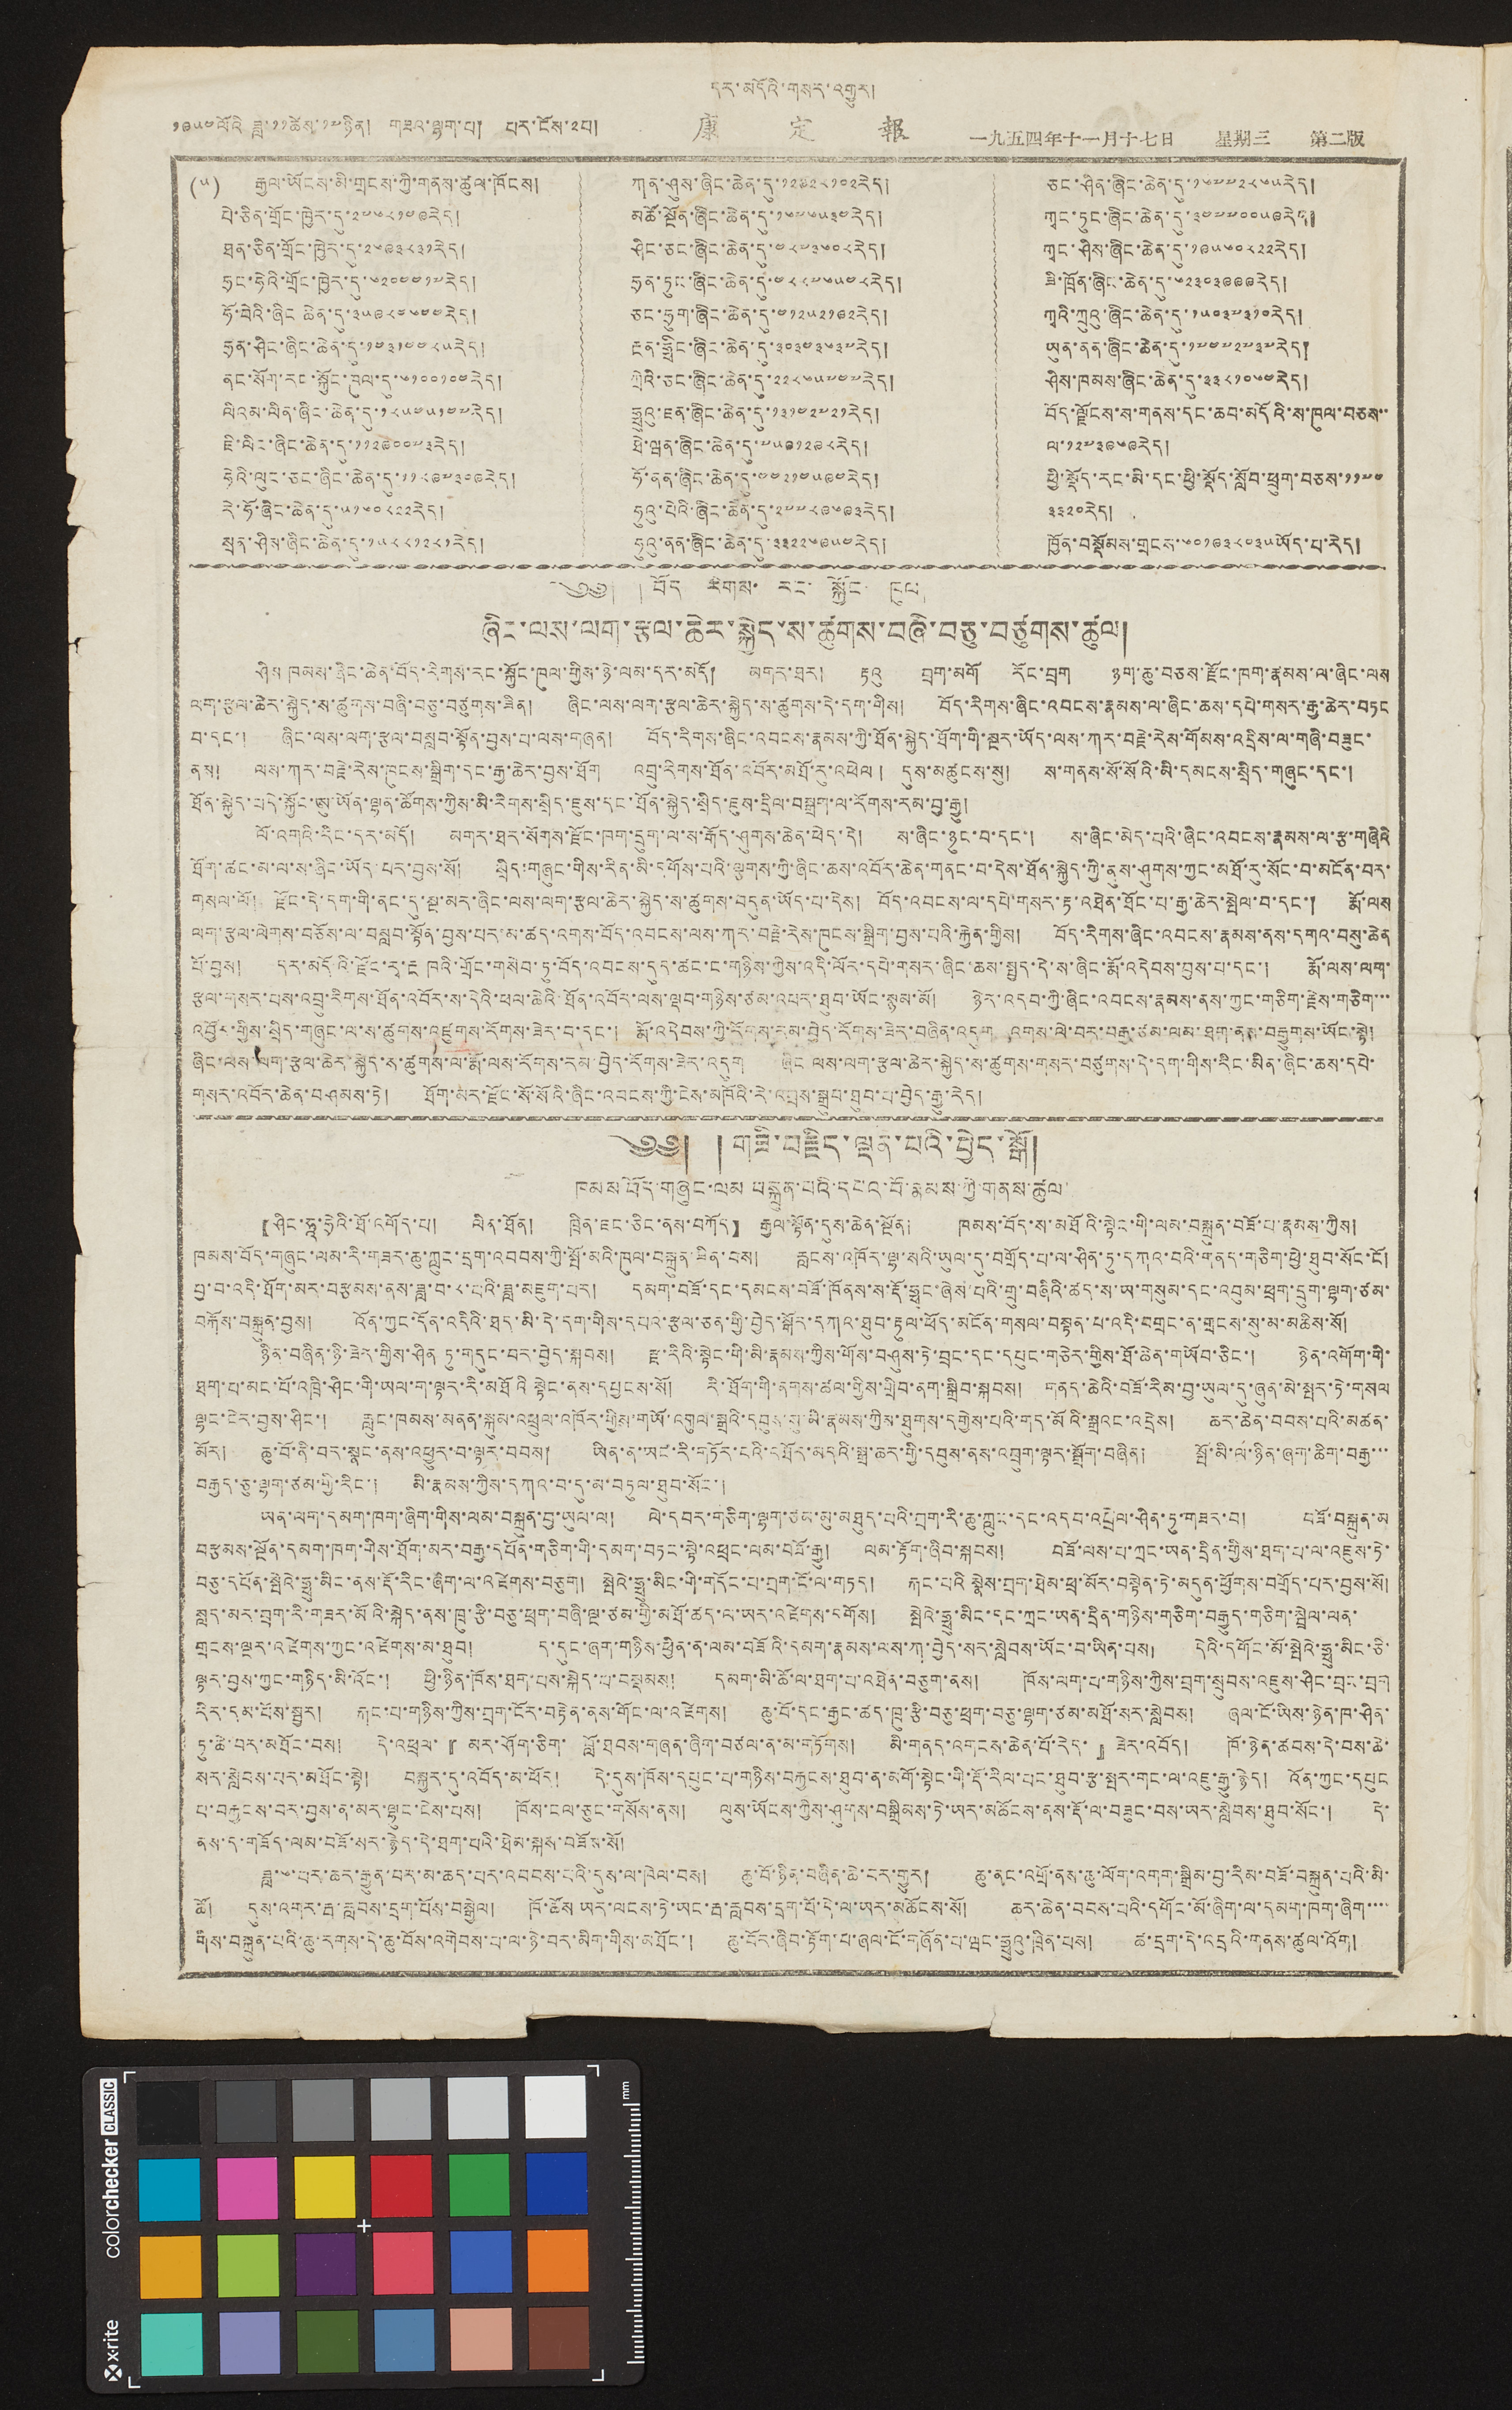དར་མདོའི་གསར་འགྱུར།
༡༩༥༤ལོའི ཟླ་༡༡ཚེས་༡༧ཉིན། གཟའ་ལྷག་པ། པར་ངོས་༢པ། 康 定 報 一九五四年十一月十七日 星期三 第二版
(༥) རྒྱལ་ཡོངས་མི་གྲངས་ཀྱི་གནས་ཚུལ་ཁོངས།
པེ་ཅིན་གྲོང་ཁྱེར་དུ་༢༧༦༨༡༤༩རེད།
ཐན་ཅིན་གྲོང་ཁྱེར་དུ་༢༤༩༣༨༣༡རེད།
ཧྲང་ཧེའི་གྲོང་ཁྱེར་དུ་༦༢༠༤༤༡༧རེད།
ཧོ་བེའི་ཞིང་ཆེན་དུ་༣༥༩༨༤༦༤༤རེད།
ཧྲན་ཤིང་ཞིང་ཆེན་དུ་༡༤༣༡༤༤༨༥རེད།
ནང་སོག་རང་སྐྱོང་ཁུལ་དུ་༦༡༠༠༡༠༤རེད།
ལིའམ་ལིན་ཞིང་ཆེན་དུ་༡༨༥༤༥༡༤༧རེད།
ཇི་ལིང་ཞིང་ཆེན་དུ་༡༡༢༩༠༠༧༣རེད།
ཧེའི་ལུང་ཅང་ཞིང་ཆེན་དུ་༡༡༨༩༧༣༠༩རེད།
རེ་ཧོ་ཞིང་ཆེན་དུ་༥༡༦༠༨༢༢རེད།
སྲན་ཤིས་ཞིང་ཆེན་དུ་༡༥༨༨༡༢༨༡རེད།
ཀན་ཤུས་ཞིང་ཆེན་དུ་༡༢༩༢༨༡༠༢རེད།
མཚོ་སྔོན་ཞིང་ཆེན་དུ་༡༦༧༦༥༣༤རེད།
ཤིང་ཅང་ཞིང་ཆེན་དུ་༤༨༧༣༦༠༨རེད།
ཧྲན་ཏུང་ཞིང་ཆེན་དུ་༤༨༨༧༦༥༤༨རེད།
ཅང་ཧྲུག་ཞིང་ཆེན་དུ་༤༡༢༥༢༡༩༢རེད།
རྔན་ཧྥིང་ཞིང་ཆེན་དུ་༣༠༣༤༣༦༣༧རེད།
ཀྲེའི་ཅང་ཞིང་ཆེན་དུ་༢༢༨༦༥༧༤༧རེད།
ཧྥུའུ་ཇན་ཞིང་ཆེན་དུ་༡༣༡༤༢༧༢༡རེད།
ཐེ་ཝན་ཞིང་ཆེན་དུ་༧༥༩༡༢༩༨རེད།
ཧོ་ནན་ཞིང་ཆེན་དུ་༤༤༢༡༤༥༩༤རེད།
ཧུའུ་པེའི་ཞིང་ཆེན་དུ་༢༧༧༨༩༦༩༣རེད།
ཧུའུ་ནན་ཞིང་ཆེན་དུ་༣༣༢༢༦༩༥༤རེད།
ཅང་ཤིན་ཞིང་ཆེན་དུ་༡༦༧༧༢༨༦༥རེད།
ཀྭང་ཏུང་ཞིང་ཆེན་དུ་༣༤༧༧༠༠༥༩རེད།
ཀྭང་ཤིས་ཞིང་ཆེན་དུ་༡༩༥༦༠༨༢༢རེད།
ཟི་ཁྲོན་ཞིང་ཆེན་དུ་༦༢༣༠༣༩༩༩རེད།
ཀྭའི་ཀྲུའུ་ཞིང་ཆེན་དུ་༡༥༠༣༧༣༡༠རེད།
ཡུན་ནན་ཞིང་ཆེན་དུ་༡༧༤༧༢༧༣༧རེད།
ཤིས་ཁམས་ཞིང་ཆེན་དུ་༣༣༨༡༠༦༤རེད།
བོད་ལྗོངས་ས་གནས་དང་ཆབ་མདོའི་ས་ཁུལ་བཅས་་
ལ་༡༢༧༣༩༦༩རེད།
སྤྱི་སྡོད་རང་མི་དང་ཕྱི་སྡོད་སློབ་ཕྲུག་བཅས་༡༡༧༤
༣༣༢༠རེད།
ཁྱོན་བསྡོམས་གྲངས་༦༠༡༩༣༨༠༣༥ཡོད་པ་རེད།
༄༅། ། བོད རིགས་ རང་ སྐྱོང ཁུལ།
ཞིང་ལས་ལག་རྩལ་ཆེར་སྐྱེད་ས་ཚུགས་བཞི་བཅུ་བཙུགས་ཚུལ།
ཤིས ཁམས་ཞིང་ཆེན་བོད་རིགས་རང་སྐྱོང་ཁུལ་གྱིས་ཉེ་ལམ་དར་མདོ། མགར་ཐར། རྟའུ བྲག་མགོ རོང་བྲག ཉག་ཆུ་བཅས་རྫོང་ཁག་རྣམས་ལ་ཞིང་ལས
ལག་རྩལ་ཆེར་སྐྱེད་ས་ཚུགས་བཞི་བཅུ་བཙུགས་ཟིན། ཞིང་ལས་ལག་རྩལ་ཆེར་སྐྱེད་ས་ཚུགས་དེ་དག་གིས། བོད་རིགས་ཞིང་འབངས་རྣམས་ལ་ཞིང་ཆས་དཔེ་གསར་རྒྱ་ཆེར་བཏང
བ་དང་། ཞིང་ལས་ལག་རྩལ་བསླབ་སྟོན་བྱས་པ་ལས་གཞན། བོད་རིགས་ཞིང་འབངས་རྣམས་ཀྱི་ཐོན་སྐྱེད་ཐོག་གི་སྔར་ཡོད་ལས་ཀར་བརྗེ་རེས་གོམས་འདྲིས་ལ་གཞི་བཟུང་
ནས། ལས་ཀར་བརྗེ་རེས་ཁུངས་སྒྲིག་དང་རྒྱ་ཆེར་བྱས་ཐོག འབྲུ་རིགས་ཐོན་འབོར་མཐོ་རུ་འཕེལ། དུས་མཚུངས་སུ། ས་གནས་སོ་སོའི་མི་དམངས་སྲིད་གཞུང་དང་།
ཐོན་སྐྱེད་བདེ་སྐྱོང་ཨུ་ཡོན་ལྷན་ཚོགས་ཀྱིས་མི་རིགས་སྲིད་ཇུས་དང་ཐོན་སྐྱེད་སྲིད་ཇུས་དྲིལ་བསྒྲག་ལ་རོགས་རམ་བྱ་རྒྱུ།
ལོ་འགའི་རིང་དར་མདོ། མགར་ཐར་སོགས་རྫོང་ཁག་དྲུག་ལ་ས་རྒོད་ཤུགས་ཆེན་ཕེད་དེ། ས་ཞིང་ཉུང་བ་དང་། ས་ཞིང་མེད་པའི་ཞིང་འབངས་རྣམས་ལ་རྩ་གཞིའི
ཐོག་ཚང་མ་ལ་ས་ཞིང་ཡོད་པར་བྱས་སོ། སྲིད་གཞུང་གིས་རིན་མི་དགོས་པའི་ལྕགས་ཀྱི་ཞིང་ཆས་འབོར་ཆེན་གནང་བ་དེས་ཐོན་སྐྱེད་ཀྱི་ནུས་ཤུགས་ཀྱང་མཐོ་རུ་སོང་བ་མངོན་བར་
གསལ་ལོ། རྫོང་དེ་དག་གི་ནང་དུ་སྔ་མར་ཞིང་ལས་ལག་རྩལ་ཆེར་སྐྱེད་ས་ཚུགས་བདུན་ཡོད་པ་དེས། བོད་འབངས་ལ་དཔེ་གསར་རྟ་འཐེན་ཐོང་པ་རྒྱ་ཆེར་སྤེལ་བ་དང་། རྨོ་ལས
ལག་རྩལ་ལེགས་བཅོས་ལ་བསླབ་སྟོན་བྱས་པར་མ་ཚད་འགས་བོད་འབངས་ལས་ཀར་བརྗེ་རེས་ཁུངས་སྒྲིག་བྱས་པའི་རྐྱེན་གྱིས། བོད་རིགས་ཞིང་འབངས་རྣམས་ནས་དགའ་བསུ་ཆེན
པོ་བྱས། དར་མདོའི་རྫོང་རྭ་རྔ ཁའི་གྲོང་གསེབ་ཏུ་བོད་འབངས་དུད་ཚང་ང་གཉིས་ཀྱིས་འདི་ལོར་དཔེ་གསར་ཞིང་ཆས་སྤྱད་དེ་ས་ཞིང་རྨོ་འདེབས་བྱས་པ་དང་། རྨོ་ལས་ལག་
རྩལ་གསར་པས་འབྲུ་རིགས་ཐོན་འབོར་ས་དེའི་ཕལ་ཆེའི་ཐོན་འབོར་ལས་ལྡབ་གཉིས་ཙམ་འཕར་ཐུབ་ཡོང་སྙམ་མོ། ཉེར་འདབ་ཀྱི་ཞིང་འབངས་རྣམས་ནས་ཀྱང་གཅིག་རྗེས་གཅིག་་་
འབྱོར་གྱིས་སྲིད་གཞུང་ལ་ས་ཚུགས་འཛུགས་རོགས་ཟེར་བ་དང་། རྨོ་འདེབས་ཀྱི་རོགས་རམ་བྱེད་རོགས་ཟེར་བཞིན་འདུག འགས་ལེ་བར་བརྒྱ་ཙམ་ལམ་ཐག་ནས་བརྒྱུགས་ཡོང་སྟེ།
ཞིང་ལས་ལག་རྩལ་ཆེར་སྐྱེད་ས་ཚུགས་ལ་རྨོ་ལས་རོགས་རམ་བྱེད་རོགས་ཟེར་འདུག ཞིང ལས་ལག་རྩལ་ཆེར་སྐྱེད་ས་ཚུགས་གསར་བཙུགས་དེ་དག་གིས་རིང་མིན་ཞིང་ཆས་དཔེ་
གསར་འབོར་ཆེན་བཤམས་ཏེ། ཐོག་མར་རྫོང་སོ་སོའི་ཞིང་འབངས་ཀྱི་ངེས་མཁོའི་རེ་འབྲས་སྒྲུབ་ཐུབ་པ་བྱེད་རྒྱུ་རེད།
༄༅། ། གཟི་བརྗོད་ལྡན་པའི་བྱེད་སྒོ།
ཁམས བོད་གཞུང་ལམ བསྐྲུན་པའི་དཔའ་བོ་རྣམས་ཀྱི་གནས་ཚུལ་
【ཤིང་ཧཱ་ཧྲེའི་ཐོ་འགོད་པ། ལིན་ཐོན། ཁྲིན་ཇང་ཅིང་ནས་བཀོད】 རྒྱལ་སྟོན་དུས་ཆེན་སྔོན། ཁམས་བོད་ས་མཐོའི་སྟེང་གི་ལམ་བསྐྲུན་བཟོ་པ་རྣམས་ཀྱིས།
ཁམས་བོད་གཞུང་ལམ་རི་གཟར་ཆུ་ཀླུང་དྲག་འབབས་ཀྱི་སྤོ་མའི་ཁུལ་བསྐྲུན་ཟིན་བས། རླངས་འཁོར་ལྷ་སའི་ཡུལ་དུ་བགྲོད་པ་ལ་ཤིན་ཏུ་དཀའ་བའི་གནད་གཅིག་ཕྱེ་ཐུབ་སོང་ངོ །
བྱ་བ་འདི་ཐོག་མར་བརྩམས་ནས་ཟླ་བ་༨་པའི་ཟླ་མཇུག་པར། དམག་བཟོ་དང་དམངས་བཟོ་དང་དམངས་བཟོ་ཁོ ནས་ས་རྡོ་ཧྥང་ཞེས་པའི་གྲུ་བཞིའི་ཚད་ས་ཡ་གསུམ་དང་འབུམ་ཕྲག་དྲུག་ལྷག་ཙམ་
བརྐོས་བསྐྲུན་བྱས། འོན་ཀྱང་དོན་འདིའི་ཐད་མི་དེ་དག་གིས་དཔའ་རྩལ་ཅན་གྱི་བྱེད་སྒོར་དཀའ་ཐུབ་རྟུལ་ཕོད་མངོན་གསལ་བསྟན་པ་འདི་བགྲང་ན་གྲངས་སུ་མ་མཆིས་སོ།
ཉིན་བཞིན་ཉི་ཟེར་གྱིས་ཤིན ཏུ་གདུང་བར་བྱེད་སྐབས། རྫ་རིའི་སྟེང་གི་མི་རྣམས་ཀྱིས་གོས་བཤུས་ཏེ་བྲང་དང་དཔུང་གཅེར་གྱིས་ཐོ་ཆེན་གཡོབ་ཅིང་། ཉེན་འགོག་གི་
ཐག་པ་མང་པོ་འཁྲི་ཤིང་གི་ཡལ་ག་ལྟར་རི་མཐོའི སྟེང་ནས་དཔྱངས་སོ། རི་ཐོག་གི་ནགས་ཚལ་གྱིས་གྲིབ་ནག་སྒྲིབ་སྐབས། གནད་ཆེའི་བཟོ་རིམ་བྱ་ཡུལ་དུ་ཞུན་མེ་སྤར་ཏེ་གསལ
ལྷང་ངེར་བྱས་ཤིང་། རླུང་ཁམས་མནན་སྐུམ་འཕྲུལ་འཁོར་གྱིས་གཡོ་འགུལ་སྒྲའི་དབུས་སུ་མི་རྣམས་ཀྱིས་ཐུགས་དགྱེས་པའི་གད་མོའི་སྒྲའང་འདྲེས། ཆར་ཆེན་བབས་པའི་མཚན་
མོར། ཆུ་བོ་ནི་བར་སྣང་ནས་འཕྱུར་བ་ལྟར་བབས། ཡིན་ན་ཡང་རི་གཏོར་ངའི་དཐོར་མདའི་སྒྲ་ཆར་གྱི་དབུས་ནས་འབྲུག་ལྟར་སྒྲོག་བཞིན། སྤོ་མི་ལ་ཉིན་ཞག་ཆིག་བརྒྱ་་་
བརྒྱད་ཅུ་ལྷག་ཙམ་གྱི་རིང་། མི་རྣམས་ཀྱིས་དཀའ་བ་དུ་མ་བཏུལ་ཐུབ་སོང་།
ཡན་ལག་དམག་ཁག་ཞིག་གིས་ལམ་བསྐྲུན་བྱ་ཡུལ་ལ། ལེ་དབར་གཅིག་ལྷག་ཙམ་མུ་མཐུད་པའི་བྲག་རི་ཆུ་ཀླུང་དང་འདབ་འབྲེལ་ཤིན་ཏུ་གཟར་བ། བཟོ་བསྐྲུན་མ
བརྩམས་སྔོན་དམག་ཁག་གིས་ཐོག་མར་བརྒྱ་དཔོན་གཅིག་གི་དམག་བཏང་སྟེ་འཕྲང་ལམ་བཟོ་རྒྱུ། ལམ་རྟོག་ཞིབ་སྐབས། བཟོ་ལས་པ་ཀྲང་ཡན་དྲིན་གྱིས་ཐག་པ་ལ་འཇུས་ཏེ་
བཅུ་དཔོན་སྤེའི་ཧྥུ་མིང་ནས་རྡོ་རིང་ཞིག་ལ་འཛེགས་བཅུག། སྤེའེ་ཧྥུ་མིང་གི་གདོང་པ་བྲག་ངོ་ལ་གཏད། རྐང་པའི སྣེས་བྲག་ཐེམ་ཕྲ་མོར་བསྟེན་ཏེ་མདུན་ཕྱོགས་བགྲོད་པར་བྱས་སོ།
སླད་མར་བྲག་རི་གཟེར་མོའི་སྐེད་ནས་ཁྲུ་རྩི་བཅུ་ཕྲག་བཞི་ལྔ་ཙམ་གྱི་མཐོ་ཚད་ལ་ཡར་འཛེགས་དགོས། སྤེའེ་ཧྥུ་མིང་དང་ཀྲང་ཡན་དྲིན་གཉིས་གཅིག་བརྒྱུད་གཅིག་སྦྲེལ་ལན་
གྲངས་ལྔར་འཛེགས་ཀྱང་འཛེགས་མ་ཐུབ། ད་དུང་ཞག་གཉིས་ཕྱིན་ན་ལམ་བཟོའི་དམག་རྣམས་ལས་ཀ་བྱེད་སར་སླེབས་ཡོང་བ་ཡིན་པས། དེའི་དགོང་མོ་སྤེའེ་ཧྥུ་མིང་ཅི་
ལྟར་བྱས་ཀྱང་གཉིད་མི་འོང་། ཕྱི་ཉིན་ཁོས་ཐག་པས་སྐེད་པ་བསྡམས། དམག་མི་ཚོ་ལ་ཐག་པ་འཐེན་བཅུག་ནས། ཁོས་ལག་པ་གཉིས་ཀྱིས་བྲག་སྲུབས་འཇུས་ཤིང་བྲང་བྲག
དིར་དམ་པོས་སྦྱར། རྐང་པ་གཉིས་ཀྱིས་བྲག་ངོར་བརྟེན་ནས་གོང་ལ་འཛེགས། ཆུ་བོ་དང་རྒྱང་ཚད་ཁྲུ་རྩི་བཅུ་ཕྲག་བཅུ་ལྷག་ཙམ་མཐོ་སར་སླེབས། ཞལ་ངོ་ཡིས་ཉེན་ཁ་ཤིན་
ཏུ་ཆེ་བར་མཐོང་བས། དེ་འཕྲལ་『 མར་ཤོག་ཅིག་ བློ་ཐབས་གཞན་ཞིག་བཙལ་ན་མ་གཏོགས། མི་གནད་འགངས་ཆེན་པོ་རེད་ 』ཟེར་འབོད། ཁོ་ཉེན་ཚབས་དེ་བས་ཆེ་
སར་སླེབས་པར་མཐོང་སྟེ། བསྐྱར་དུ་འབོད་མ་ཕོད། དེ་དུས་ཁོས་དཔུང་པ་གཉིས་བརྐྱངས་ཐུབ་ན་མགོ་སྟེང་གི་རྡོ་རིལ་པང་ཐུབ་རྩ་སྤར་གང་ལ་འཇུ་རྒྱུ་རྙེད། འོན་ཀྱང་དཔུང
པ་བརྐྱངས་བར་བྱས་ན་མར་ལྷུང་ངེས་པས། ཁོས་ངལ་ཅུང་གསོས་ནས། ལུས་ཡོངས་ཀྱིས་ཤུགས་བསྒྲིམས་ཏེ་ཡར་མཆོངས་ནས་རྡོ་ལ་བཟུང་བས་ཡར་སླེབས་ཐུབ་སོང་། དེ་
ནས་ད་གཟོད་ལམ་བཟོ་སར་རྙེད་དེ་ཐག་པའི་ཐེམ་སྐས་བཟོས་སོ།
ཟླ་༦་བར་ཆར་རྒྱུན་བར་མ་ཆད་པར་འབངས་པའི་དུས་ལ་ཁེལ་བས། ཆུ་བོ་ཉིན་བཞིན་ཆེ་བར་གྱུར། ཆུ་ནང་འགྲོ་ནས་ཆུ་ལོག་འགག་སྒྲིམ་བྱ་རིམ་བཟོ་བསྐྲུན་པའི་མི་
ཚོ། དུས་འགར་རྦ་རླབས་དྲག་པོས་བསྒྱེལ། ཁོ་ཚོས ཡར་ལངས་ཏེ་ཡང་རྦ་རླབས་དྲག་པོ་དེ་ལ་ཡར་མཆོངས་སོ། ཆར་ཆེན་བབས་པའི་དགོང་མོ་ཞིག་ལ་དམག་ཁག་ཞིག་་་་
གིས་བསྐྲུན་པའི་ཆུ་རགས་དེ་ཆུ་བོས་འགེབས་པ་ལ་ཉེ་བར་མིག་གིས་མཐོང་། ཆུ་བོར་ཞིབ་རྟོག་པ་ཞལ་ངོ་གཞོན་པ་ཝང་ཧྥུའུ་ཁྲིན་པས། ཚ་དྲག་དེ་འདྲའི་གནས་ཚུལ་འོག།
